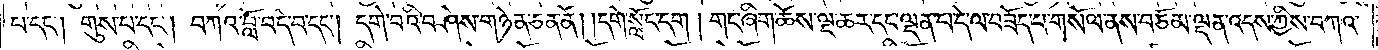པ་དང༌། གུས་པ་དང༌། བཀའ་བློ་བདེ་བ་དང༌། དགེ་བའི་བཤེས་གཉེན་ཅན་ནོ། །དགེ་སློང་དག །གང་ཞིག་ཆོས་ལྔ་ཆར་དང་ལྡན་པ་དེ་ལ་བཟོད་པ་གསོལ་ནས་བཅོམ་ལྡན་འདས་ཀྱིས་བཀའ་
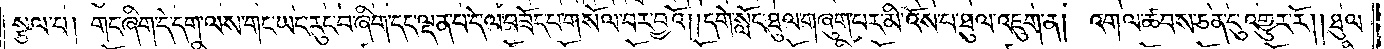སྩལ་པ། གང་ཞིག་དེ་དག་ལས་གང་ཡང་རུང་བ་ཞིག་དང་ལྡན་པ་དེ་ལ་བཟོད་པ་གསོལ་བར་བྱའོ། །དགེ་སློང་ཐུལ་གཞུག་པར་མི་འོས་པ་ཐུལ་འཇུག་ན། འགལ་ཚབས་ཅན་དུ་འགྱུར་རོ། །ཐུལ་
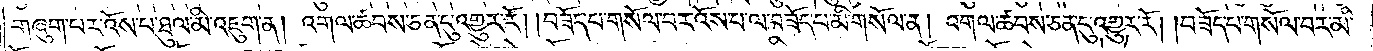གཞུག་པར་འོས་པ་ཐུལ་མི་འཇུག་ན། འགལ་ཚབས་ཅན་དུ་འགྱུར་རོ། །བཟོད་པ་གསོལ་བར་འོས་པ་ལ་བཟོད་པ་མི་གསོལ་ན། འགལ་ཚབས་ཅན་དུ་འགྱུར་རོ། །བཟོད་པ་གསོལ་བར་མི་
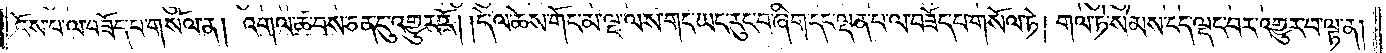འོས་པ་ལ་བཟོད་པ་གསོལ་ན། འགལ་ཚབས་ཅན་དུ་འགྱུར་རོ། །དེ་ལ་ཆེས་གོང་མ་ལྔ་ལས་གང་ཡང་རུང་བ་ཞིག་དང་ལྡན་པ་ལ་བཟོད་པ་གསོལ་ཏེ། གལ་ཏེ་སེམས་ངད་ལྡང་བར་འགྱུར་པ་ལྟ་ན།
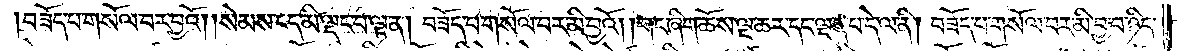བཟོད་པ་གསོལ་བར་བྱའོ། །སེམས་ངད་མི་ལྡང་བ་ལྟ་ན། བཟོད་པ་གསོལ་བར་མི་བྱའོ། །གང་ཞིག་ཆོས་ལྔ་ཆར་དང་ལྡན་པ་དེ་ལ་ནི། བཟོད་པ་གསོལ་བར་མི་བྱ་བ་ཉིད་
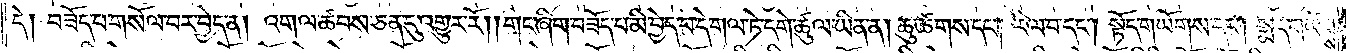དེ། བཟོད་པ་གསོལ་བར་བྱེད་ན། འགལ་ཚབས་ཅན་དུ་འགྱུར་རོ། །གང་ཞིག་བཟོད་པ་མི་བྱེད་པ་དེ་གལ་ཏེ་དགེ་ཚུལ་ཡིན་ན། ཆུ་ཚགས་དང༌། རིལ་བ་དང༌། སྟོད་གཡོགས་དང༌། སྨད་གཡོགས་
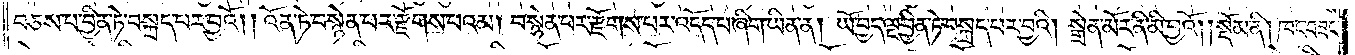བཅས་པ་བྱིན་ཏེ་བསྐྲད་པར་བྱའོ། །འོན་ཏེ་བསྙེན་པར་རྫོགས་པའམ། བསྙེན་པར་རྫོགས་པར་འདོད་པ་ཞིག་ཡིན་ན། ཡོ་བྱད་ལྔ་བྱིན་ཏེ་བསྐྲད་པར་བྱའི། སྒྲེན་མོར་ནི་མི་བྱའོ།    །སྡོམ་ནི། ཁང་བཟང་
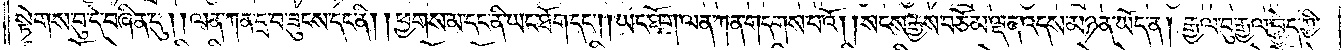སྟེགས་བུ་དེ་བཞིན་དུ། །ལན་ཀན་དྲ་བ་ཟུངས་དང་ནི། །ཕྱགས་མ་དང་ནི་ཡང་ཐོག་དང༌། །ཡང་ཐོག་ལན་ཀན་གདགས་པའོ། །སངས་རྒྱས་བཅོམ་ལྡན་འདས་མཉན་ཡོད་ན། རྒྱལ་བུ་རྒྱལ་བྱེད་ཀྱི་
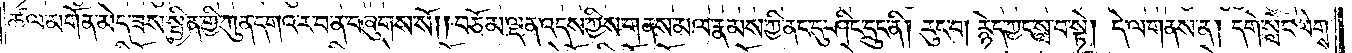ཚལ་མགོན་མེད་ཟས་སྦྱིན་གྱི་ཀུན་དགའ་ར་བ་ན་བཞུགས་སོ། །བཅོམ་ལྡན་འདས་ཀྱིས་གནས་མལ་རྣམས་ཀྱི་ནང་དུ་ཤིང་དྲུང་ནི། རུང་བ། རྙེད་ཀྱང་སླ་བ་སྟེ། དེ་ལ་གནས་ན། དགེ་སློང་ལེགས་
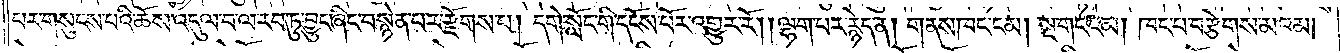པར་གསུངས་པའི་ཆོས་འདུལ་བ་ལ་རབ་ཏུ་བྱུང་ཞིང་བསྙེན་པར་རྫོགས་པ། དགེ་སློང་གི་དངོས་པོར་འགྱུར་རོ། །ལྷག་པར་རྙེད་ན། གནས་ཁང་ངམ། སྔ་གང་ངམ། ཁང་པ་བརྩེགས་མའམ།
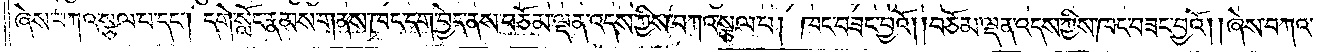ཞེས་བཀའ་སྩལ་པ་དང༌། དགེ་སློང་རྣམས་གནས་ཁང་དག་བྱེད་ནས་བཅོམ་ལྡན་འདས་ཀྱིས་བཀའ་སྩལ་པ། ཁང་བཟང་བྱའོ། །བཅོམ་ལྡན་འདས་ཀྱིས་ཁང་བཟང་བྱའོ། །ཞེས་བཀའ་
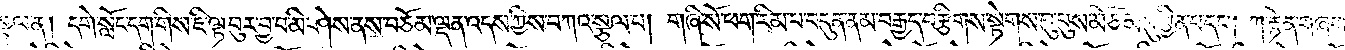སྩལ་ན། དགེ་སློང་དག་གིས་ཇི་ལྟ་བུར་བྱ་བ་མི་ཤེས་ནས་བཅོམ་ལྡན་འདས་ཀྱིས་བཀའ་སྩལ་པ། གཞི་སོ་ཕག་རིམ་པ་བདུན་ནམ་བརྒྱད་བརྩིགས་སྟེགས་བུ་པུས་མོ་ཙམ་དུ་ཕྱིན་པ་དང༌། ཀ་རྟེན་གཞག་
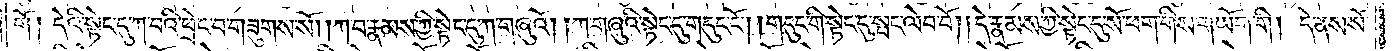གེ། དེའི་སྟེང་དུ་ཀ་བའི་ཕྲེང་བ་གཟུགས་སོ། །ཀ་བ་རྣམས་ཀྱི་སྟེང་དུ་ཀ་གཞུའོ། །ཀ་གཞུའི་སྟེང་དུ་གདུང་ངོ༌། །གདུང་གི་སྟེང་དུ་སྤང་ལེབ་བོ། །དེ་རྣམས་ཀྱི་སྟེང་དུ་སོ་ཕག་གིས་གཡོག་གི། དེ་ནས་སོ་
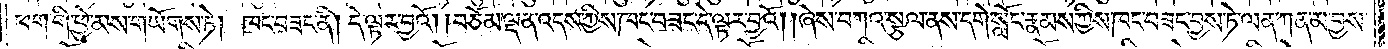ཕག་གི་ཕྱེ་མས་གཡོགས་ཏེ། ཁང་བཟང་ནི། དེ་ལྟར་བྱའོ། །བཅོམ་ལྡན་འདས་ཀྱིས་ཁང་བཟང་དེ་ལྟར་བྱའོ། །ཞེས་བཀའ་སྩལ་ནས་དགེ་སློང་རྣམས་ཀྱིས་ཁང་བཟང་བྱས་ཏེ་ལན་ཀན་མ་བྱས་
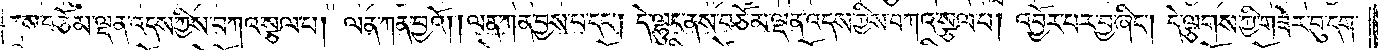ནས་བཅོམ་ལྡན་འདས་ཀྱིས་བཀའ་སྩལ་པ། ལན་ཀན་བྱའོ། །ལན་ཀན་བྱས་པ་དང༌། དེ་ལྷུང་ནས་བཅོམ་ལྡན་འདས་ཀྱིས་བཀའ་སྩལ་པ། འབྱོར་པར་བྱ་ཞིང༌། དེ་ལྕགས་ཀྱི་གཟེར་བུ་དག་
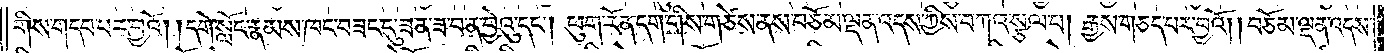གིས་གདབ་པར་བྱའོ། །དགེ་སློང་རྣམས་ཁང་བཟང་དུ་ཟན་ཟ་བ་ན་བྱེའུ་དང༌། ཕུག་རོན་དག་གིས་གཙེས་ནས་བཅོམ་ལྡན་འདས་ཀྱིས་བཀའ་སྩལ་པ། རྒྱས་གཅད་པར་བྱའོ། །བཅོམ་ལྡན་འདས་
